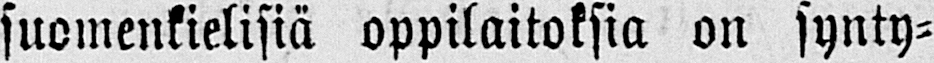suomenkielisiä oppilaitoksia on synty-
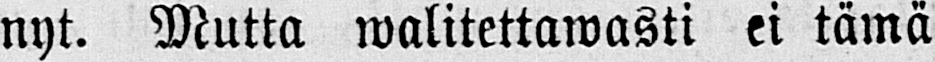nyt. Mutta walitettawasti ei tämä
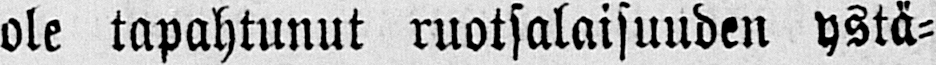ole tapahtunut ruotsalaisuuden ystä-
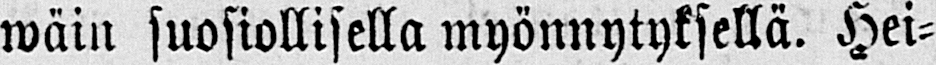wäin suosiollisella myönnytyksellä. Hei-
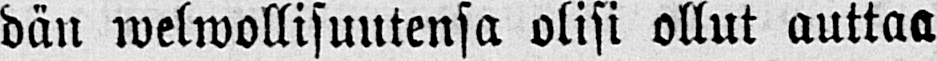dän welwollisuutensa olisi ollut auttaa
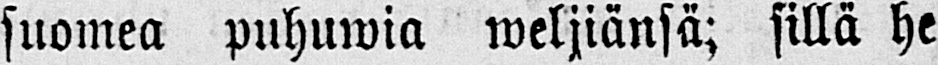suomea puhuwia weljiänsä; sillä he
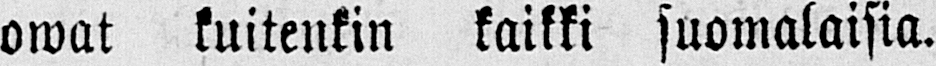owat kuitenkin kaikki suomalaisia.
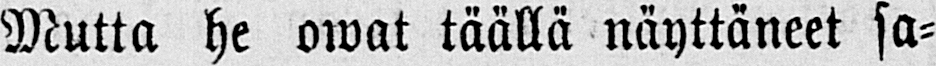Mutta he owat täällä näyttäneet sa-
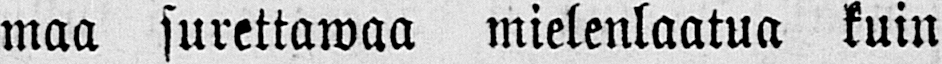maa surettawaa mielenlaatua kuin
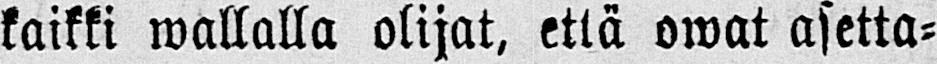kaikki wallalla olijat, että owat asetta-
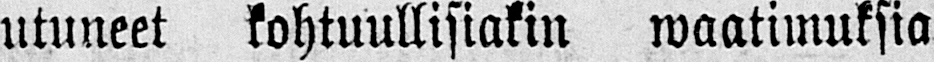utuneet kohtuullisiakin waatimuksia
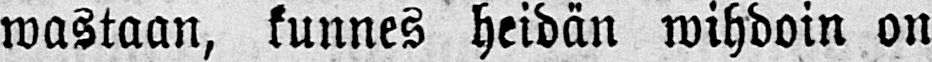wastaan, kunnes heidän wihdoin on
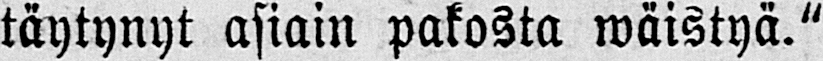täytynyt asiain pakosta wäistyä."
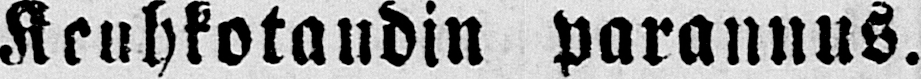Keuhkotaudin parannus.
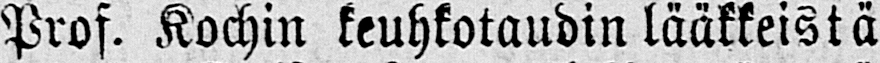Prof. Kochin keuhkotaudin lääkkeistä
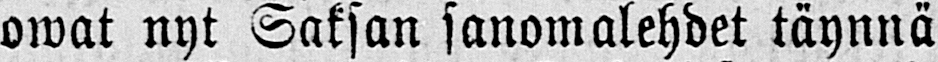owat nyt Saksan sanomalehdet täynnä
